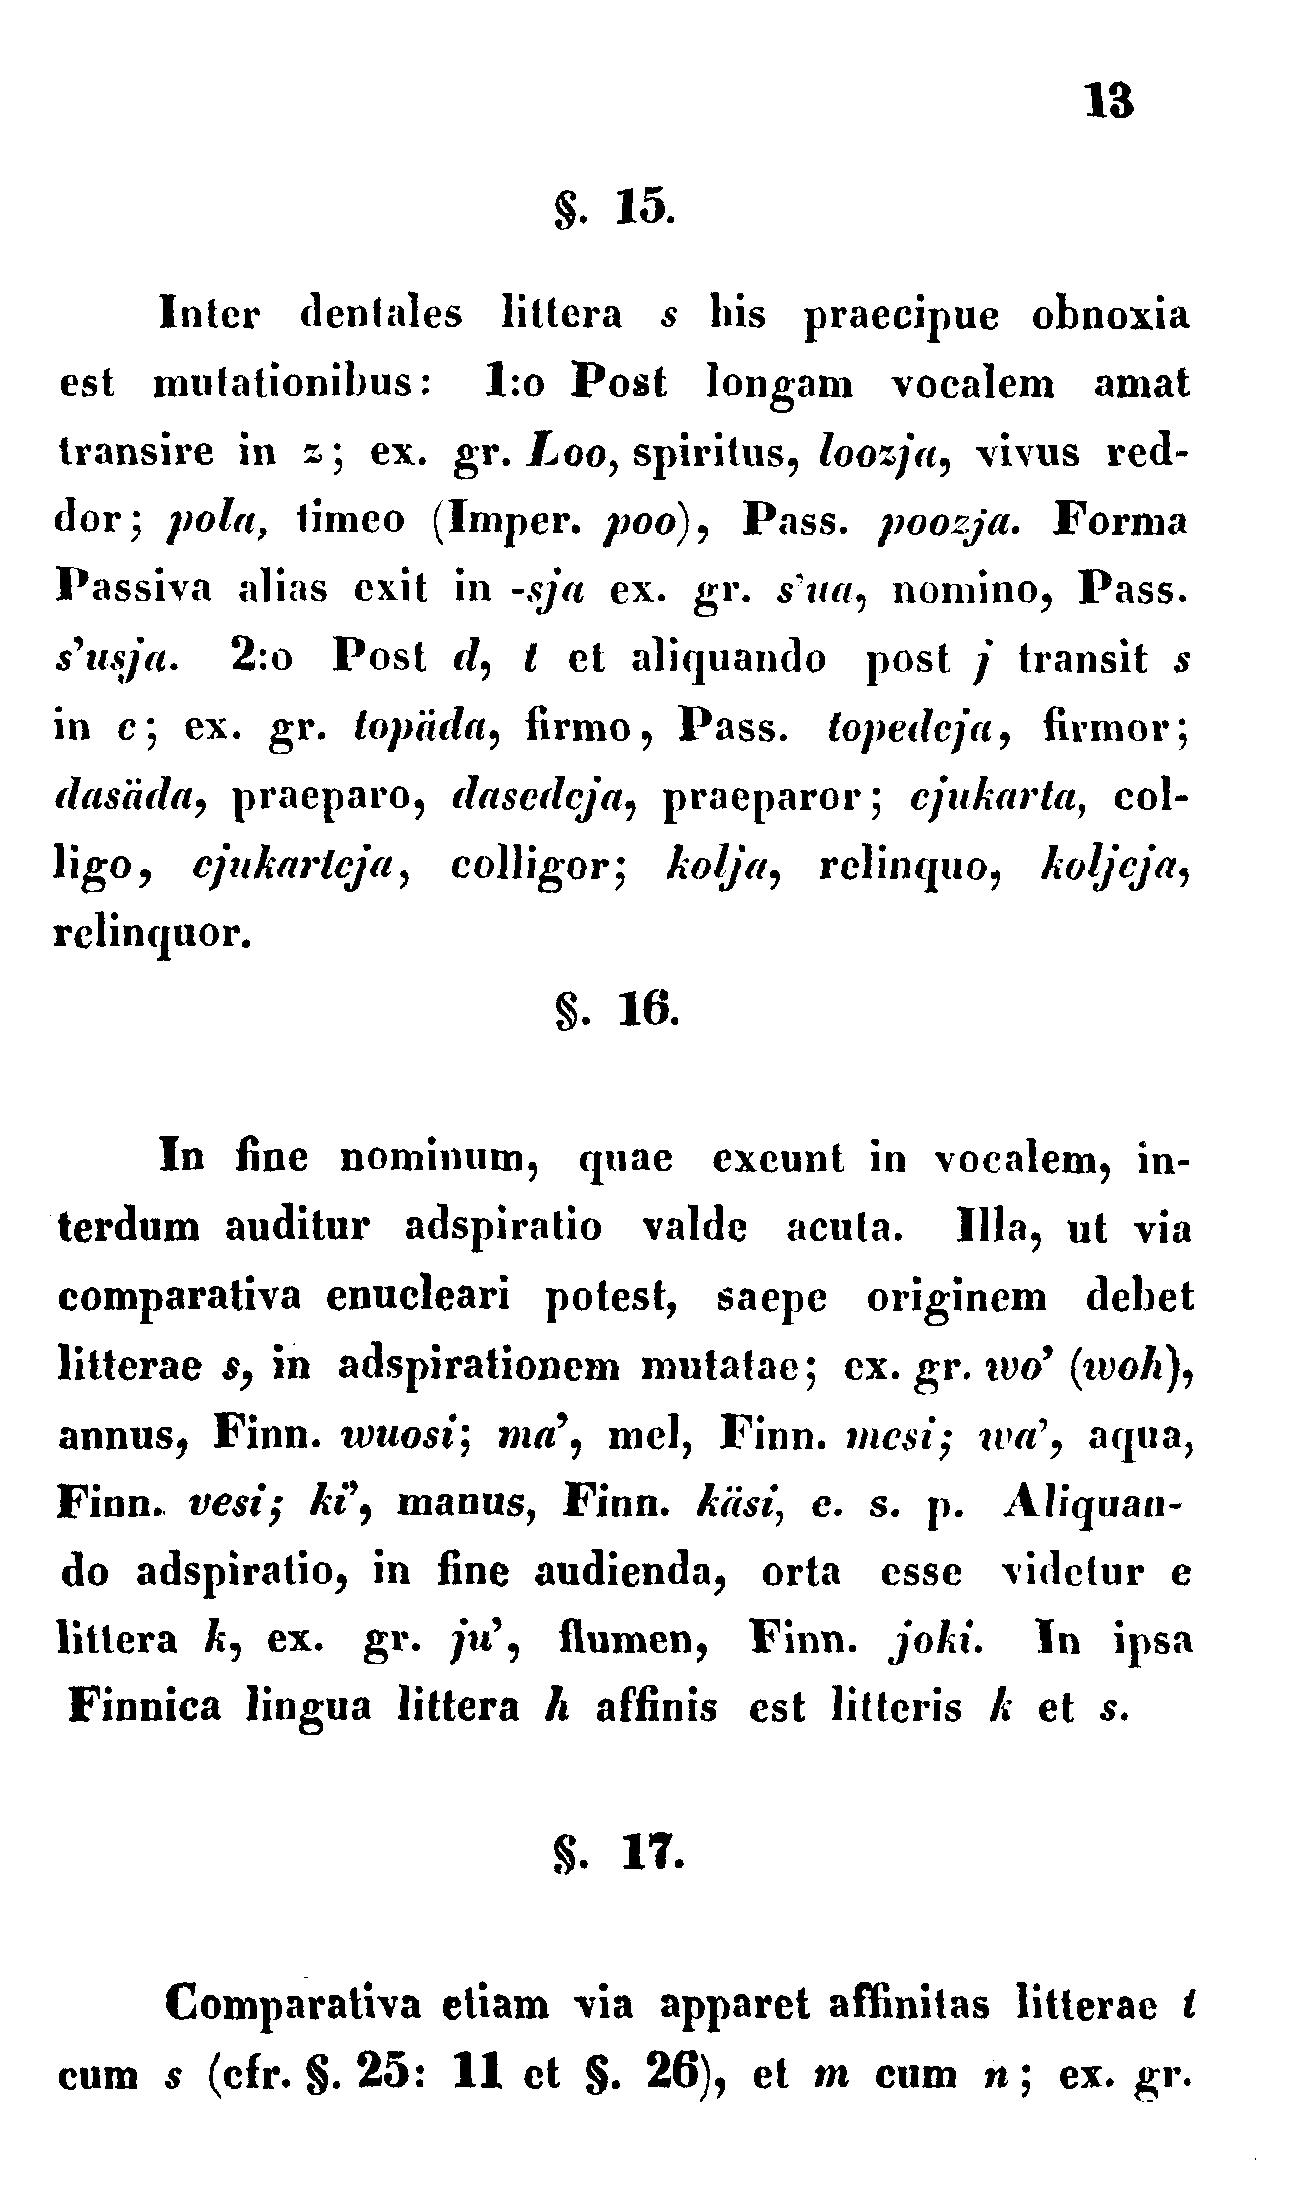13
§. 15.
Inter dentales littera s his praecipue obnoxia
est mutationibus: 1:o Post longam vocalem amat
transire in z; ex. gr. Loo, spiritus, loozja, vivus red-
dor; pola, timeo (Imper. poo), Pass. poozja. Forma
Passiva alias exit in -sja ex. gr. s'ua, nomino, Pass.
s'usja. 2:o Post d, t et aliquando post j transit s
in c; ex. gr. topäda, firmo, Pass. topedeja, firmor;
dasäda, praeparo, dasedcja, praeparor ; cjukarta, col-
ligo, cjukartcja, colligor: kolja, relinquo, koljcja,
relinquor.
§. 16.
In fine nominum, quae exeunt in vocalem, in-
terdum auditur adspiratio valde acuta. Illa, ut via
comparativa enucleari potest, saepe originem debet
litterae s, in adspirationem mutatae; ex. gr. wo' (woh),
annus, Finn. wuosi; ma', mel, Finn. mesi; wa', aqua,
Finn. vesi; ki', manus, Finn. käsi, e. s. p. Aliquan-
do adspiratio, in fine audienda, orta esse videtur e
littera k, ex. gr. ju', flumen, Finn. joki. In ipsa
Finnica lingua littera h affinis est litteris k et s.
§. 17.
Comparativa etiam via apparet affinitas litterae t
cum s (cfr. §. 25: 11 et §. 26), et m cum n; ex. gr.
